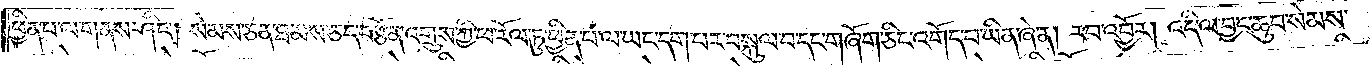ཕྱིན་པ་ལ་གནས་ཤིང༌། སེམས་ཅན་ཐམས་ཅད་བརྩོན་འགྲུས་ཀྱི་ཕ་རོལ་ཏུ་ཕྱིན་པ་ལ་ཡང་དག་པར་བསྐུལ་བ་དང་གཞོག་ཅིང་འགོད་པ་ཡིན་ཞེ་ན། རབ་འབྱོར། འདི་ལ་བྱང་ཆུབ་སེམས་
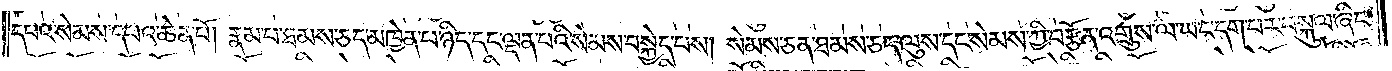དཔའ་སེམས་དཔའ་ཆེན་པོ། རྣམ་པ་ཐམས་ཅད་མཁྱེན་པ་ཉིད་དང་ལྡན་པའི་སེམས་བསྐྱེད་པས། སེམས་ཅན་ཐམས་ཅད་ལུས་དང་སེམས་ཀྱི་བརྩོན་འགྲུས་ལ་ཡང་དག་པར་བསྐུལ་ཞིང་
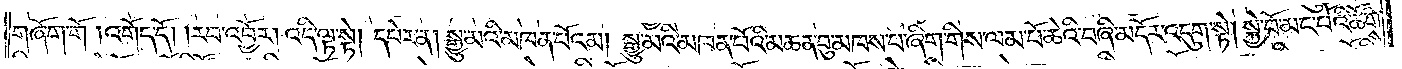གཞོག་གོ །འགོད་དོ། །རབ་འབྱོར། འདི་ལྟ་སྟེ། དཔེར་ན། སྒྱུ་མའི་མཁན་པོའམ། སྒྱུ་མའི་མཁན་པོའི་མཆན་བུ་མཁས་པ་ཞིག་གིས་ལམ་པོ་ཆེའི་བཞི་མདོར་འདུག་སྟེ། སྐྱེ་བོ་མང་པོའི་ཚོགས་
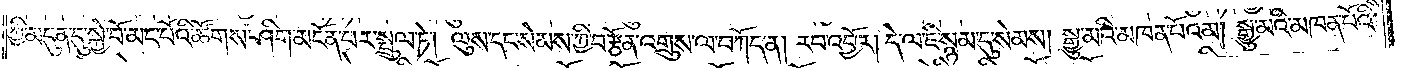ཀྱི་མདུན་དུ་སྐྱེ་བོ་མང་པོའི་ཚོགས་ཤིག་མངོན་པར་སྤྲུལ་ཏེ། ལུས་དང་སེམས་ཀྱི་བརྩོན་འགྲུས་ལ་བཀོད་ན། རབ་འབྱོར། དེ་ལ་ཇི་སྙམ་དུ་སེམས། སྒྱུ་མའི་མཁན་པོ་འམ། སྒྱུ་མའི་མཁན་པོའི་
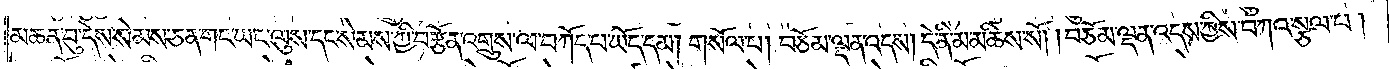མཆན་བུ་དེས་སེམས་ཅན་གང་ཡང་ལུས་དང་སེམས་ཀྱི་བརྩོན་འགྲུས་ལ་བཀོད་པ་ཡོད་དམ། གསོལ་བ། བཅོམ་ལྡན་འདས། དེ་ནི་མ་མཆིས་སོ། །བཅོམ་ལྡན་འདས་ཀྱིས་བཀའ་སྩལ་པ།
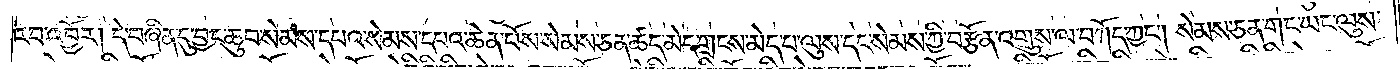རབ་འབྱོར། དེ་བཞིན་དུ་བྱང་ཆུབ་སེམས་དཔའ་སེམས་དཔའ་ཆེན་པོས་སེམས་ཅན་ཚད་མེད་གྲངས་མེད་པ་ལུས་དང་སེམས་ཀྱི་བརྩོན་འགྲུས་ལ་བཀོད་ཀྱང༌། སེམས་ཅན་གང་ཡང་ལུས་
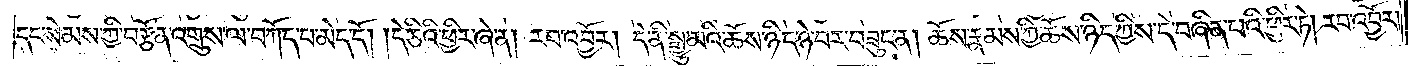དང་སེམས་ཀྱི་བརྩོན་འགྲུས་ལ་བཀོད་པ་མེད་དོ། །དེ་ཅིའི་ཕྱིར་ཞེ་ན། རབ་འབྱོར། དེ་ནི་སྒྱུ་མའི་ཆོས་ཉིད་ཉེ་བར་བཟུང་ན། ཆོས་རྣམས་ཀྱི་ཆོས་ཉིད་ཀྱིས་དེ་བཞིན་པའི་ཕྱིར་ཏེ། རབ་འབྱོར།
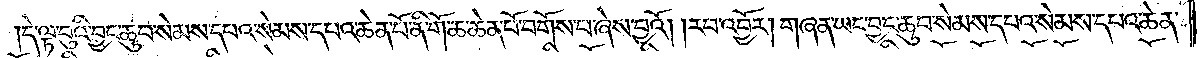དེ་ལྟ་བུའི་བྱང་ཆུབ་སེམས་དཔའ་སེམས་དཔའ་ཆེན་པོ་ནི་གོ་ཆ་ཆེན་པོ་བགོས་པ་ཞེས་བྱའོ། །རབ་འབྱོར། གཞན་ཡང་བྱང་ཆུབ་སེམས་དཔའ་སེམས་དཔའ་ཆེན་
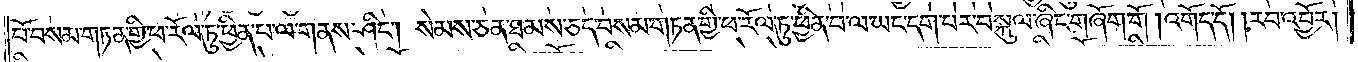པོ་བསམ་གཏན་གྱི་ཕ་རོལ་ཏུ་ཕྱིན་པ་ལ་གནས་ཤིང༌། སེམས་ཅན་ཐམས་ཅད་བསམ་གཏན་གྱི་ཕ་རོལ་ཏུ་ཕྱིན་པ་ལ་ཡང་དག་པར་བསྐུལ་ཞིང་གཞོག་གོ །འགོད་དོ། །རབ་འབྱོར།
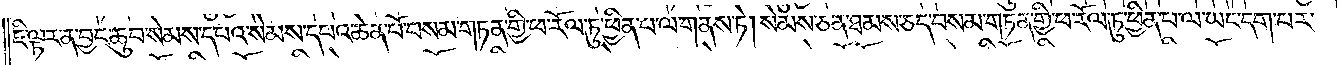ཇི་ལྟར་ན་བྱང་ཆུབ་སེམས་དཔའ་སེམས་དཔའ་ཆེན་པོ་བསམ་གཏན་གྱི་ཕ་རོལ་ཏུ་ཕྱིན་པ་ལ་གནས་ཏེ། སེམས་ཅན་ཐམས་ཅད་བསམ་གཏན་གྱི་ཕ་རོལ་ཏུ་ཕྱིན་པ་ལ་ཡང་དག་པར་
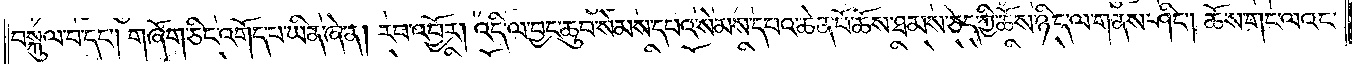བསྐུལ་བ་དང༌། གཞོག་ཅིང་འགོད་པ་ཡིན་ཞེ་ན། རབ་འབྱོར། འདི་ལ་བྱང་ཆུབ་སེམས་དཔའ་སེམས་དཔའ་ཆེན་པོ་ཆོས་ཐམས་ཅད་ཀྱི་ཆོས་ཉིད་ལ་གནས་ཤིང༌། ཆོས་གང་ལའང་
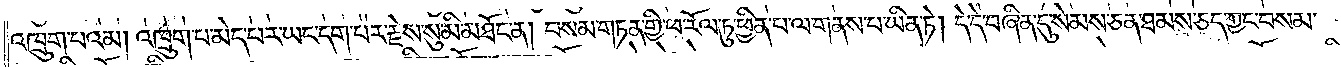འཁྲུག་པ་འམ། འཁྲུག་པ་མེད་པར་ཡང་དག་པར་རྗེས་སུ་མི་མཐོང་ན། བསམ་གཏན་གྱི་ཕ་རོལ་ཏུ་ཕྱིན་པ་ལ་གནས་པ་ཡིན་ཏེ། དེ་དེ་བཞིན་དུ་སེམས་ཅན་ཐམས་ཅད་ཀྱང་བསམ་
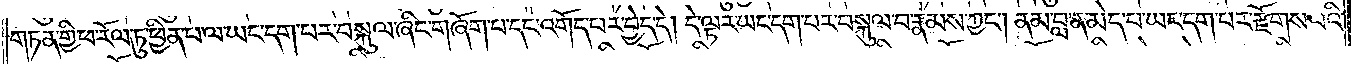གཏན་གྱི་ཕ་རོལ་ཏུ་ཕྱིན་པ་ལ་ཡང་དག་པར་བསྐུལ་ཞིང་གཞོག་པ་དང་འགོད་པར་བྱེད་དེ། དེ་ལྟར་ཡང་དག་པར་བསྐུལ་བ་རྣམས་ཀྱང༌། ནམ་བླ་ན་མེད་པ་ཡང་དག་པར་རྫོགས་པའི་
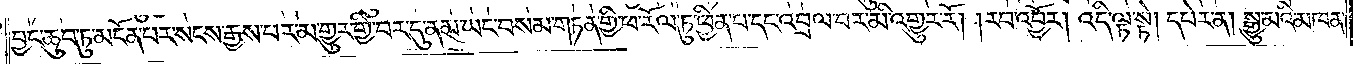བྱང་ཆུབ་ཏུ་མངོན་པར་སངས་རྒྱས་པར་མ་གྱུར་གྱི་བར་དུ་ནམ་ཡང་བསམ་གཏན་གྱི་ཕ་རོལ་ཏུ་ཕྱིན་པ་དང་འབྲལ་བར་མི་འགྱུར་རོ། །རབ་འབྱོར། འདི་ལྟ་སྟེ། དཔེར་ན། སྒྱུ་མའི་མཁན་
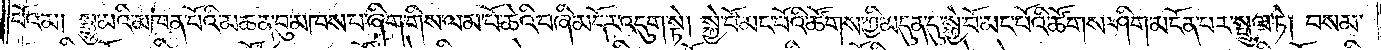པོའམ། སྒྱུ་མའི་མཁན་པོའི་མཆན་བུ་མཁས་པ་ཞིག་གིས་ལམ་པོ་ཆེའི་བཞི་མདོར་འདུག་སྟེ། སྐྱེ་བོ་མང་པོའི་ཚོགས་ཀྱི་མདུན་དུ་སྐྱེ་བོ་མང་པོའི་ཚོགས་ཤིག་མངོན་པར་སྤྲུལ་ཏེ། བསམ་
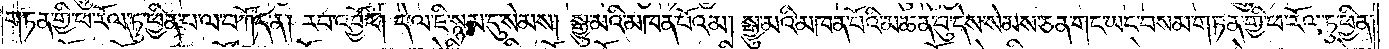གཏན་གྱི་ཕ་རོལ་ཏུ་ཕྱིན་པ་ལ་བཀོད་ན། རབ་འབྱོར། དེ་ལ་ཇི་སྙམ་དུ་སེམས། སྒྱུ་མའི་མཁན་པོ་འམ། སྒྱུ་མའི་མཁན་པོའི་མཆན་བུ་དེས་སེམས་ཅན་གང་ཡང་བསམ་གཏན་གྱི་ཕ་རོལ་ཏུ་ཕྱིན་
